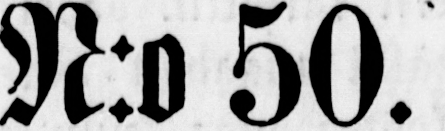N:o 50.
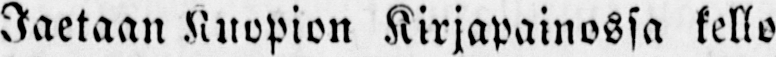Jaetaan Kuopion Kirjapainossa kello
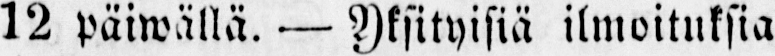12 päiwällä. — Yksityisiä ilmoituksia
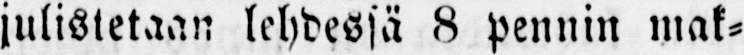julistetaan lehdessä 8 pennin mak-
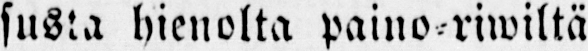susta hienolta paino -riwiltä
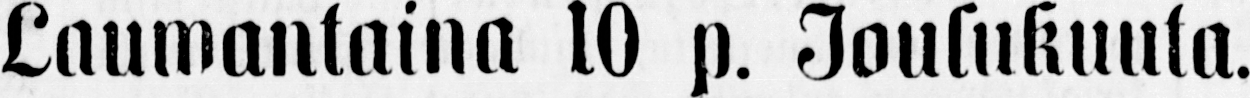Lauwantaina 10 p. Joulukuuta.
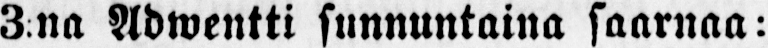3:na Adwentti sunnuntaina saarnaa:
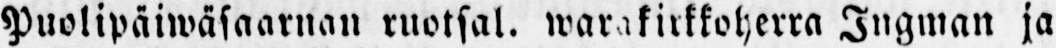Puolipäiwäsaarnan ruotsal. warakirkkoherra Ingman ja
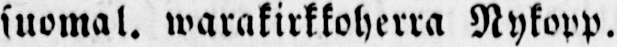suomal, warakirkkoherra Nykopp.
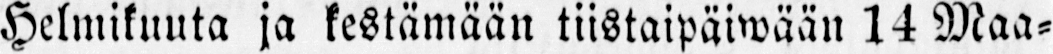Helmikuuta ja kestämään tiistaipäiwään 14 Maa-
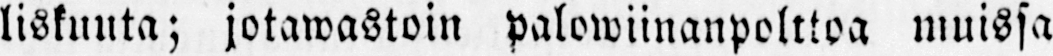liskuuta; jotawastoin palowiinanpolttoa muissa
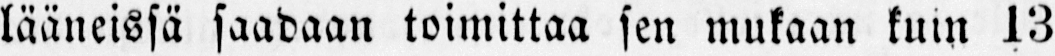lääneissä saadaan toimittaa sen mukaan kuin 13
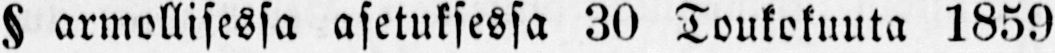§ armollisessa asetuksessa 30 Toukokuuta 1859
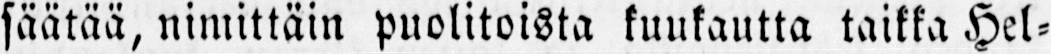säätää, nimittäin puolitoista kuukautta taikka Hel-
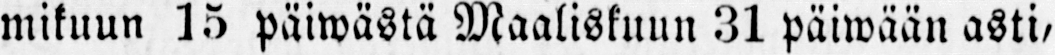mikuun 15 päiwästä Maaliskuun 31 päiwään asti,
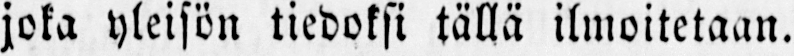joka yleisön tiedoksi tällä ilmoitetaan.
